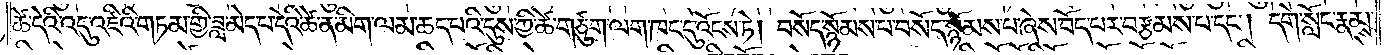ཚེ་དེའི་འདུ་འཛིའི་གཏམ་གྱི་ཟླ་མེད་པ་དེའི་ཚེ་ན་མིག་ལམ་ཆད་པའི་དུས་ཀྱི་ཚེ་གཙུག་ལག་ཁང་དུ་འོངས་ཏེ། བསོད་སྙོམས་པ་བསོད་སྙོམས་པ་ཞེས་བོད་པར་བརྩམས་པ་དང༌། དགེ་སློང་རྣམས་
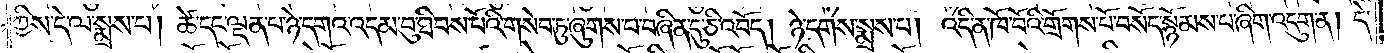ཀྱིས་དེ་ལ་སྨྲས་པ། ཚེ་དང་ལྡན་པ་ཉེ་དགའ་འདམ་བུ་ཐིབས་པོའི་གསེབ་ཏུ་ཞུགས་པ་བཞིན་དུ་ཅི་འབོད། ཉེ་དགས་སྨྲས་པ། འདི་ན་ཁོ་བོའི་གྲོགས་པོ་བསོད་སྙོམས་པ་ཞིག་འདུག་ན། དེ་
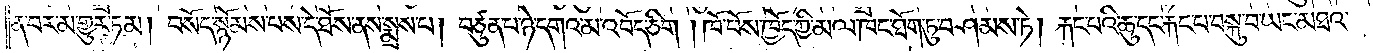ན་བར་མ་གྱུར་ཏམ། བསོད་སྙོམས་པས་དེ་ཐོས་ནས་སྨྲས་པ། བཙུན་པ་ཉེ་དགའ་མ་འབོད་ཅིག །ཁོ་བོས་ཁྱོད་ཀྱི་མལ་ཁང་ཐོག་ཏུ་བཤམས་ཏེ། རྐང་པའི་ཆུ་དང་རྐང་པ་བསྐུ་བ་ཡང་མཐའ་
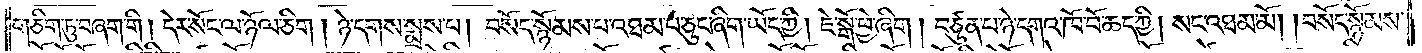གཅིག་ཏུ་བཞག་གི། དེར་སོང་ལ་ཉོལ་ཅིག །ཉེ་དགས་སྨྲས་པ། བསོད་སྙོམས་པ་འཐམ་པ་ཅུང་ཞིག་ཡོད་ཀྱི། ཇེ་སྒོ་ཕྱེ་ཞིག། བཙུན་པ་ཉེ་དགའ་ཁོ་བོ་ཆད་ཀྱི། སང་འཐམ་མོ། །བསོད་སྙོམས་
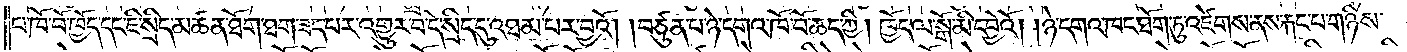པ་ཁོ་བོ་ཁྱོད་དང་ཇི་སྲིད་མཚན་ཐོག་ཐག་ཟད་པར་འགྱུར་བ་དེ་སྲིད་དུ་འཐམ་པར་བྱའོ། །བཙུན་པ་ཉེ་དགའ་ཁོ་བོ་ཆད་ཀྱི། ཁྱོད་ལ་སྒོ་མི་དབྱེའོ། །ཉེ་དགའ་ཁང་ཐོག་ཏུ་འཛེགས་ནས་རྐང་པ་གཉིས་
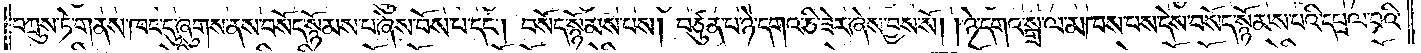བཀྲུས་ཏེ་གནས་ཁང་དུ་ཞུགས་ནས་བསོད་སྙོམས་པ་ཞེས་བོས་པ་དང༌། བསོད་སྙོམས་པས། བཙུན་པ་ཉེ་དགའ་ཅི་ཟེར་ཞེས་བྱས་སོ། །ཉེ་དགའ་སྒྲ་ལ་མཁས་པས་དེས་བསོད་སྙོམས་པའི་དཔྲལ་བའི་
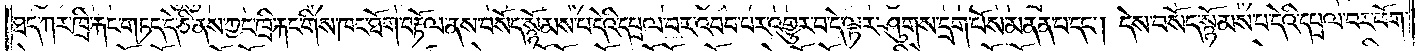ཐད་ཀར་ཁྲི་རྐང་གཏད་དེ་ཅི་ནས་ཀྱང་ཁྲི་རྐང་གིས་ཁང་ཐོག་བརྟོལ་ནས་བསོད་སྙོམས་པ་དེའི་དཔྲལ་བར་འབབ་པར་འགྱུར་བ་དེ་ལྟར་ཤུགས་དྲག་པོས་མནན་པ་དང༌། དེས་བསོད་སྙོམས་པ་དེའི་དཔྲལ་བར་ཕོག་
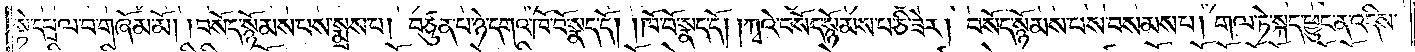སྟེ་དཔྲལ་བ་གཞོམ་མོ། །བསོད་སྙོམས་པས་སྨྲས་པ། བཙུན་པ་ཉེ་དགའ་ཁོ་བོ་སྣད་དོ། །ཁོ་བོ་སྣད་དོ། །ཀྭའི་བསོད་སྙོམས་པ་ཅི་ཟེར། བསོད་སྙོམས་པས་བསམས་པ། གལ་ཏེ་སྐད་ཕྱུང་ན་འདིས་
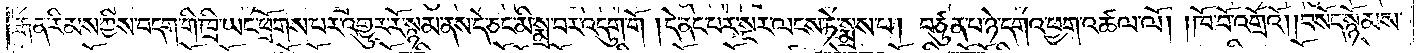རྒན་རིམས་ཀྱིས་བདག་གི་ཁྲི་ཡང་ཕྲོགས་པར་འགྱུར་རོ་སྙམ་ནས་དེ་ཅང་མི་སྨྲ་བར་འདུག་གོ །དེ་ནང་པར་སྔར་ལངས་ཏེ་སྨྲས་པ། བཙུན་པ་ཉེ་དགའ་ཕྱག་འཚལ་ལོ། །ཁོ་བོ་འགྲོའོ། །བསོད་སྙོམས་
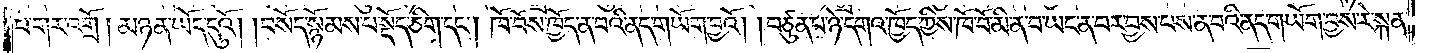པ་གར་འགྲོ། མཉན་ཡོད་དུའོ། །བསོད་སྙོམས་པ་སྡོད་ཅིག་དང༌། ཁོ་བོས་ཁྱོད་ན་བའི་ནད་གཡོག་བྱའོ། །བཙུན་པ་ཉེ་དགའ་ཁྱོད་ཀྱིས་ཁོ་བོ་མི་ན་བ་ཡང་ན་བར་བྱས་པས་ན་བའི་ནད་གཡོག་བྱས་རེ་སྐན་
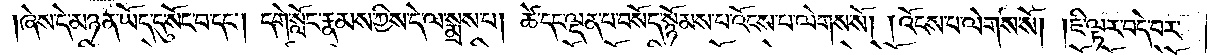ཞེས་དེ་མཉན་ཡོད་དུ་སོང་བ་དང༌། དགེ་སློང་རྣམས་ཀྱིས་དེ་ལ་སྨྲས་པ། ཚེ་དང་ལྡན་པ་བསོད་སྙོམས་པ་འོངས་པ་ལེགས་སོ། །འོངས་པ་ལེགས་སོ། །ཇི་ལྟར་བདེ་བར་
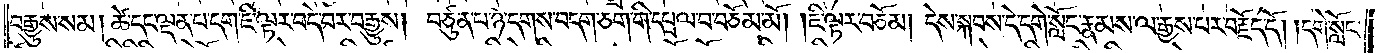བརྒྱུས་སམ། ཚེ་དང་ལྡན་པ་དག་ཇི་ལྟར་བདེ་བར་བརྒྱུས། བཙུན་པ་ཉེ་དགས་བདག་ཅག་གི་དཔྲལ་བ་བཅོམ་མོ། །ཇི་ལྟར་བཅོམ། དེས་སྐབས་དེ་དགེ་སློང་རྣམས་ལ་རྒྱས་པར་བརྗོད་དོ། །དགེ་སློང་
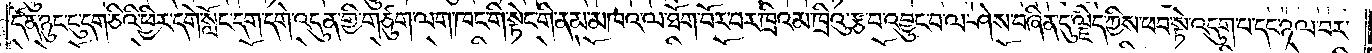དོན་ཉུང་དུ་དག་ཅིའི་ཕྱིར་དགེ་སློང་དག་དགེ་འདུན་གྱི་གཙུག་ལག་ཁང་གི་སྟེང་གི་ནམ་མཁའ་ལ་ཐོག་བོར་བར་ཁྲིའམ་ཁྲིའུ་རྩ་བ་འབྱུང་བ་ལ་ཤེས་བཞིན་དུ་ལྗིད་ཀྱིས་ཕབ་སྟེ་འདུག་པ་དང་ཉལ་བར་
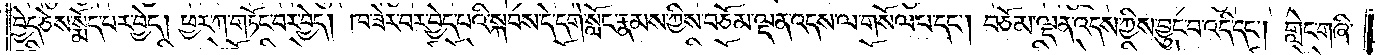བྱེད་ཅེས་སྨོད་པར་བྱེད། ཕྱར་ཀ་གཏོང་བར་བྱེད། ཁ་ཟེར་བར་བྱེད་པའི་སྐབས་དེ་དགེ་སློང་རྣམས་ཀྱིས་བཅོམ་ལྡན་འདས་ལ་གསོལ་པ་དང༌། བཅོམ་ལྡན་འདས་ཀྱིས་བྱུང་བ་འདི་དང༌། གླེང་གཞི་
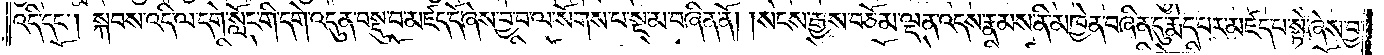འདི་དང༌། སྐབས་འདི་ལ་དགེ་སློང་གི་དགེ་འདུན་བསྡུ་བ་མཛད་དོ་ཞེས་བྱ་བ་ལ་སོགས་པ་སྔ་མ་བཞིན་ནོ། །སངས་རྒྱས་བཅོམ་ལྡན་འདས་རྣམས་ནི་མཁྱེན་བཞིན་དུ་རྨེད་པར་མཛད་པ་སྟེ་ཞེས་བྱ་
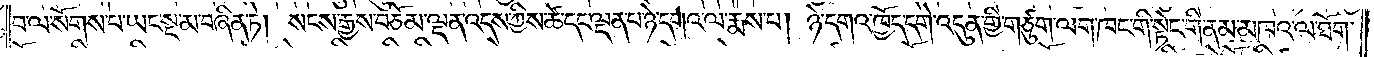བ་ལ་སོགས་པ་ཡང་སྔ་མ་བཞིན་ཏེ། སངས་རྒྱས་བཅོམ་ལྡན་འདས་ཀྱིས་ཚེ་དང་ལྡན་པ་ཉེ་དགའ་ལ་རྨས་པ། ཉེ་དགའ་ཁྱོད་དགེ་འདུན་གྱི་གཙུག་ལག་ཁང་གི་སྟེང་གི་ནམ་མཁའ་ལ་ཐོག་
